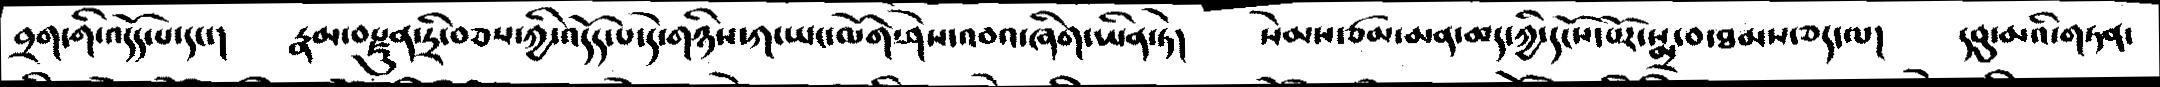བྲག་གི་འདོད་པ་དང་།  རྣམ་བསྫུན་དྲི་བཅས་ཀྱི་འདོད་པ་དེ་གཉིས་ཀ་ཡང་ལོག་ཤེས་འབའ་ཞིག་ཡིན་ཏེ།  སེམས་ཙམ་མན་ཆད་ཀྱི་དངོས་པར་སྨྲ་བ་ཐམས་ཅད་ལ།  དབུ་མའི་གཏན་
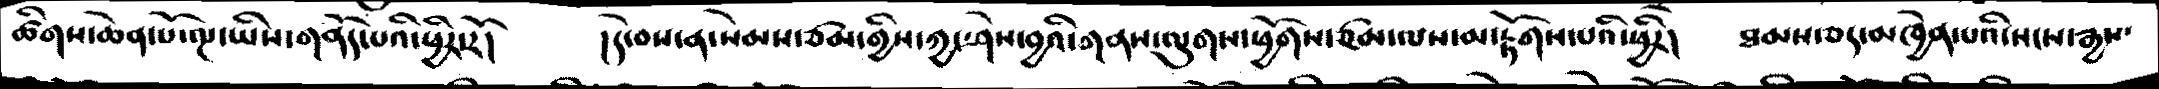ཚིགས་ཆེན་པོ་ལྔ་ཡིས་གནོད་པའི་ཕྱིར་རོ།  །དེ་བས་ན་སེམས་ཙམ་གྱིས་ཀྱང་ཤེས་བྱའི་གནས་ལུགས་ཕྱོགས་ཙམ་ལས་མ་རྟོགས་པའི་ཕྱིར།  ཐམས་ཅད་མཁྱེན་པའི་སངས་རྒྱས་
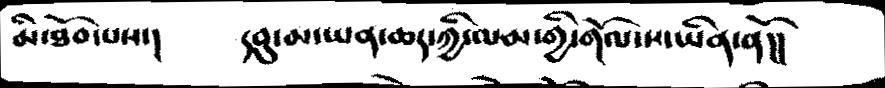མི་ཐོབ་པས་།   དབུ་མ་ཡན་ཆད་ཀྱི་ལམ་གྱི་གོལ་ས་ཡིན་ནོ།།
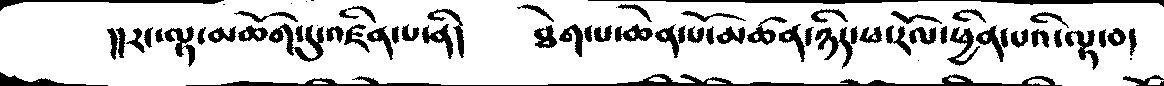།།རང་ལྟ་མཆོག་དུ་འཛིན་པ་ནི།  ཐེག་པ་ཆེན་པོ་མཚན་ཉིད་ཕ་རོལ་ཕྱིན་པའི་ལྟ་བ།
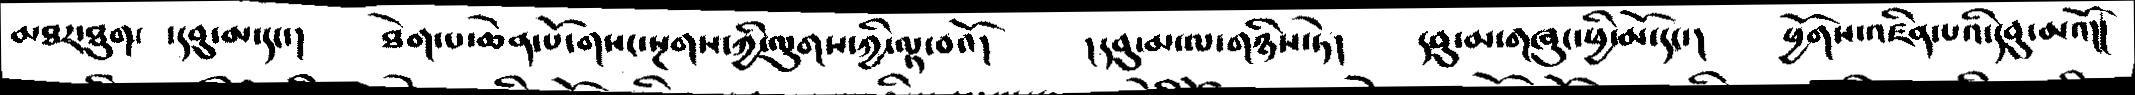མཐར་ཐུག་ དབུ་མ་དང་།  ཐེག་པ་ཆེན་པོ་གསང་སྔགས་ཀྱི་ལུགས་ཀྱི་ལྟ་བའོ།  །དབུ་མ་ལ་གཉིས་ཏེ།   དབུ་མ་གཞུང་ཕྱི་མོ་དང་།  ཕྱོགས་འཛིན་པའི་དབུ་མའོ།།
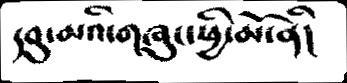དབུ་མའི་གཞུང་ཕྱི་མོ་ནི།
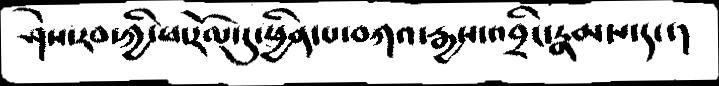ཤེས་རབ་ཀྱི་ཕ་རོལ་དུ་ཕྱིན་པ་བཀའ་རྒྱས་འབྲིང་རྣམས་དང་།
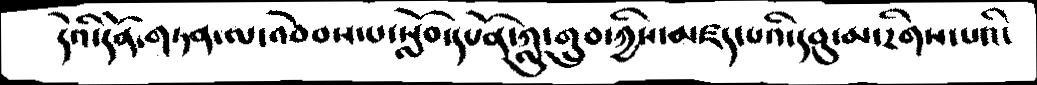དེའི་དོན་གཏན་ལ་འབེབས་པ་སློབ་དཔོན་ཀླུ་གྲུབ་ཀྱིས་མཛད་པའི་དབུ་མ་རིགས་པའི་
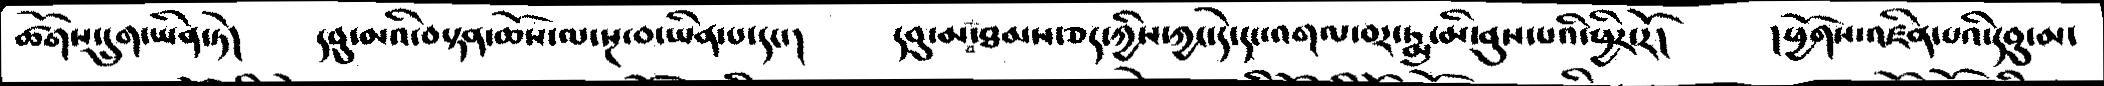ཚོགས་དྲུག་ཡིན་ཏེ།  དབུ་མའི་བསྟན་ཆོས་ལ་སྔ་བ་ཡིན་པ་དང་།  དབུ་མ་བ་ཐམས་ཅད་ཀྱིས་ཀྱང་དེ་དང་འགལ་བར་སྨྲ་ནུས་པའི་ཕྱིར་རོ།  །ཕྱོགས་འཛིན་པའི་དབུ་མ་
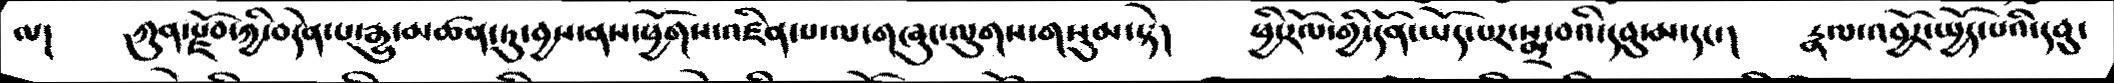ལ།   ཀུན་རྫོབ་ཀྱི་བདེན་པ་རྒྱུ་མཚན་ཏུ་བྱས་ནས་ཕྱོགས་འཛིན་པ་ལ་གཞུང་ལུགས་གསུམ་སྟེ།   ཕྱི་རོལ་གྱི་དོན་ཡོད་པར་སྨྲ་བའི་དབུ་མ་དང་།  རྣལ་འབྱོར་སྤྱོད་པའི་དབུ་
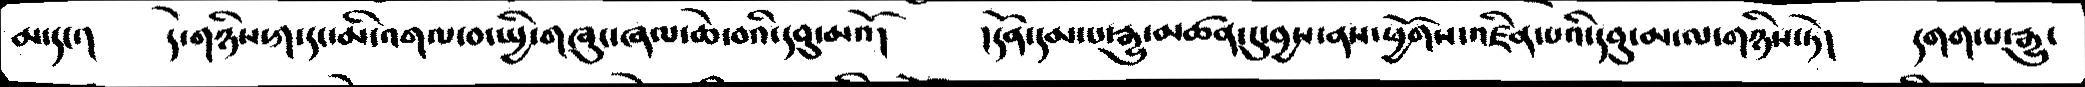མ་དང་།  དེ་གཉིས་ཀ་དང་མི་འགལ་བ་སྤྱི་གཞུང་ཞལ་ཆེ་བའི་དབུ་མའོ།   །དོན་དམ་པ་རྒྱུ་མཚན་དུ་བྱས་ནས་ཕྱོགས་འཛིན་པའི་དབུ་མ་ལ་གཉིས་ཏེ།  དགག་པ་རྒྱུ་
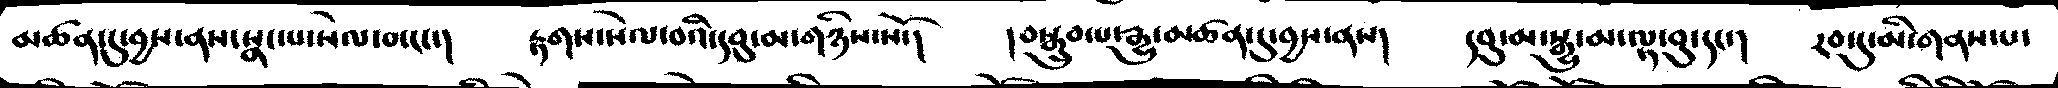མཚན་དུ་བྱས་ནས་སྣང་པ་སེལ་བ་དང་།  རྟགས་སེལ་བའི་དབུ་མ་གཉིས་སོ་།  །བསྒྲུབ་པ་རྒྱུ་མཚན་དུ་བྱས་ནས།  དབུ་མ་སྒྱུ་མ་ལྟ་བུ་དང་།  རབ་དུ་མི་གནས་པ་
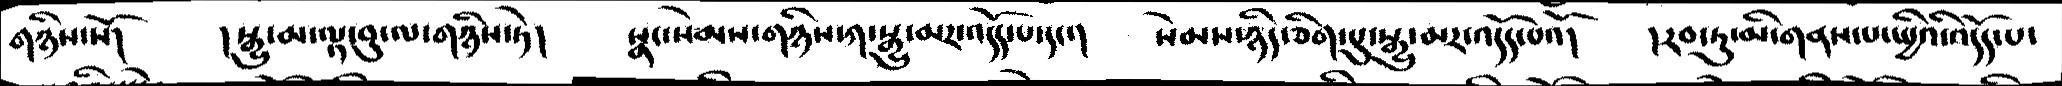གཉིས་སོ།   །སྒྱུ་མ་ལྟ་བུ་ལ་གཉིས་ཏེ།  སྣང་སེམས་གཉིས་ཀ་སྒྱུ་མར་འདོད་པ་དང་།  སེམས་ཉིད་ཅིག་པུ་སྒྱུ་མར་འདདོད་པའོ།  །རབ་ཏུ་མི་གནས་པ་སྤྱིའི་འདོད་པ་
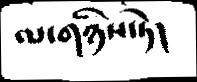ལ་གཉིས་ཏེ།
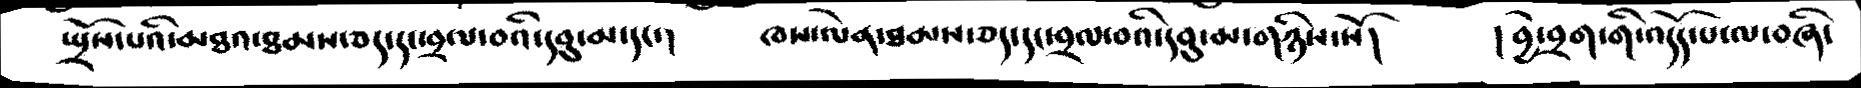སྤྲོས་པའི་མཐའ་ཐམས་ཅད་དང་བྲལ་བའི་དབུ་མ་དང་།  ཁས་ལེན་ཐམས་ཅད་དང་བྲལ་བའི་དབུ་མ་གཉིས་སོ།  ། བྱེ་བྲག་གི་འདོད་པ་ལ་བཞི་
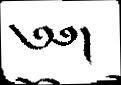༄༅།
